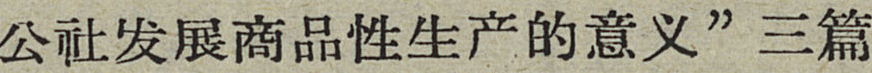公社发展商品性生产的意义”三篇
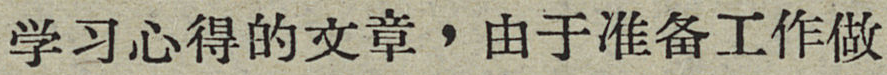学习心得的文章，由于准备工作做
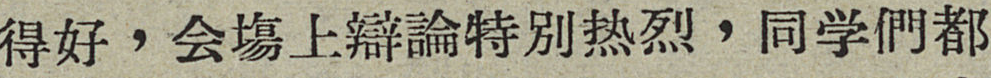得好，会塲上辯論特別热烈，同学們都
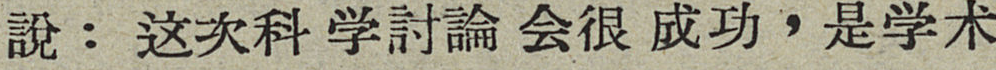說：这次科学討論会很成功，是学术
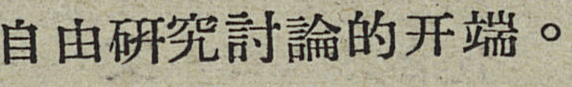自由研究討論的开端。
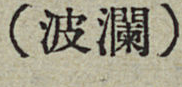（波瀾）
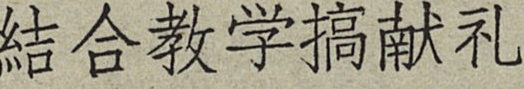結合教学搞献礼
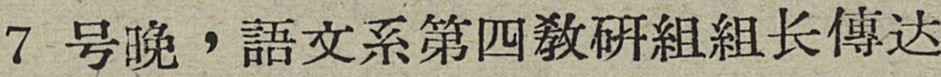7号晚，語文系第四敎研組組长傳达
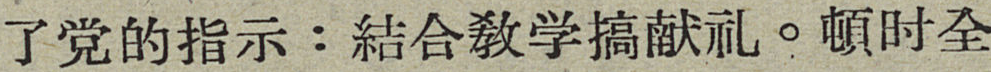了党的指示：結合敎学搞献礼。頓时全
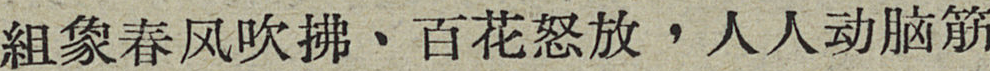組象春风吹拂、百花怒放，人人动脑筋
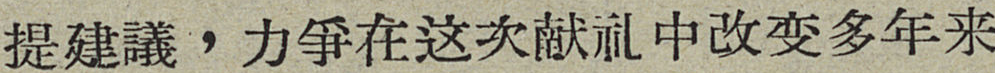提建議，力爭在这次献礼中改变多年来
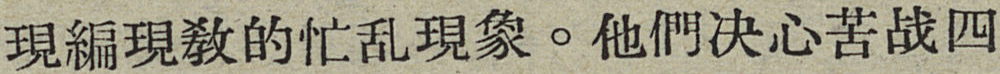現編現敎的忙乱現象。他們决心苦战四
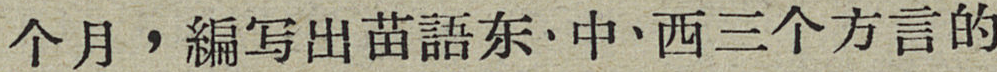个月，編写出苗語东、中、西三个方言的
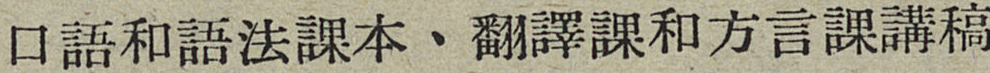口語和語法課本、翻譯課和方言課講稿
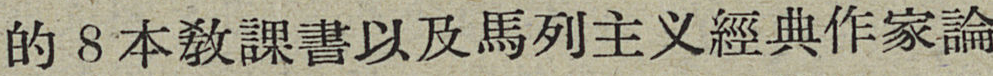的8本敎課書以及馬列主义經典作家論
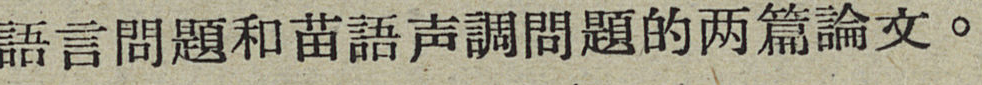語言問題和苗語声調問題的两篇論文。
